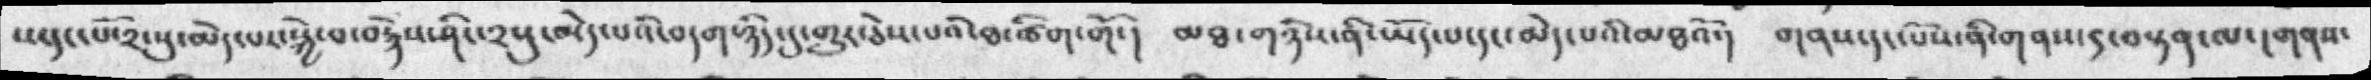ས་དང་པོ་༢སུ་མེད་པར་སྐྱེ་བ་བརྙེས་ཤིང་༢སུ་མེད་པའི་བདག་ཉིད་དུ་གྱུར་ཅེས་པའི་ཐ་ཚིག་གོ་།  མཐ་གཉིས་ནི་ཡོད་པ་དང་མེད་པའི་མཐའོ་། གནས་དང་པོས་ནི་གནས་༩་བསྟན་ལ་།གནས་
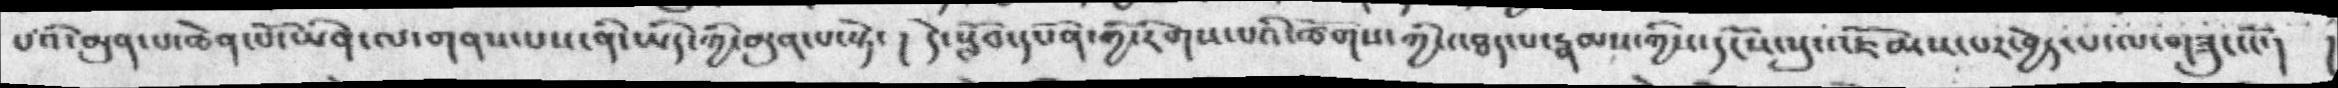པའི་མུན་པ་ཆེན་པོ་ཡིན་ལ་གནས་པས་ནི་ཡིད་ཀྱི་མུན་པ་སྟེ་།  དེ་སློབ་དཔོན་གྱི་རིགས་པའི་ཚོགས་ཀྱི་འཐད་པ་རྣམས་ཀྱིས་དངོས་སུ་འཇོམས་པར་བྱེད་པ་ལ་གཟུང་ངོ་། །
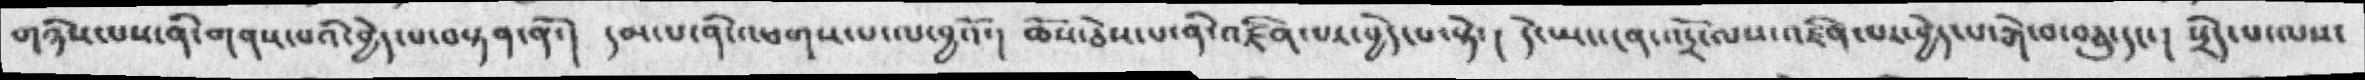གཉིས་པས་ནི་གནས་པའི་བྱེད་པ་བསྟན་ནོ་།  དམ་པ་ནི་འཕགས་པ་ལ་བྱའོ་།  ཆོས་ཅེས་པ་ནི་འཛིན་པར་བྱེད་པ་སྟེ་། དེ་ཡང་ངན་འདྲོ་ལས་འཛིན་པར་བྱེད་པ་རྒེ་བ་བཅུ་དང་། སྲིད་པ་ལས་
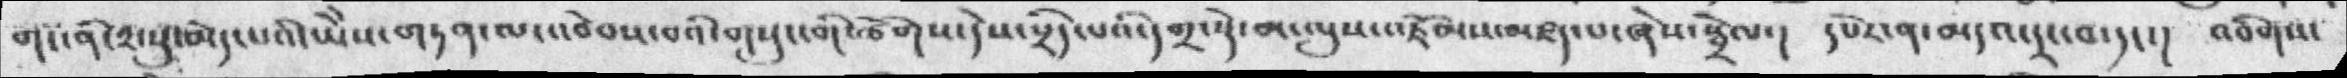གང་ནི་༢་སུ་མེད་པའི་ཡེེས་གཏན་ལ་འབེབས་པའི་གསུང་གི་ཚོགས་དེས་སྲིད་པའི་དགྲ་སྡེ་མ་ལུས་འཇོམས་མཛད་པ་ཞེས་སྦྲེལ་།  དཔེར་ན་མདའ་དྲང་བ་དང་། འབིགས་
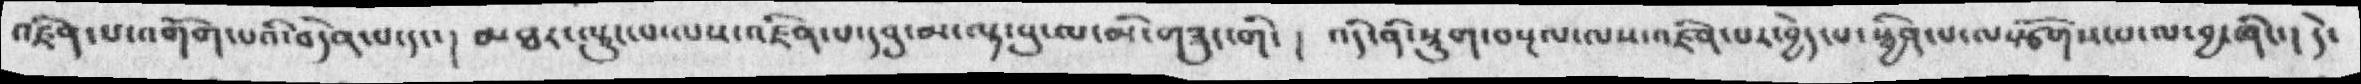འཛིན་པ་འགོག་པའི་བདེན་པ་དང་།  མཐར་ལྟུང་པ་ལས་འཛིན་པ་དབུ་མ་ལྟ་བུ་ལ་མི་གཟུང་གི་ ། འདི་ནི་སྡུག་བསྔལ་ལས་འཛིན་པར་བྱེད་པ་སྦྱིན་པ་ལསྩོགས་པ་ལ་བྱ་ཞིང་། དེ་
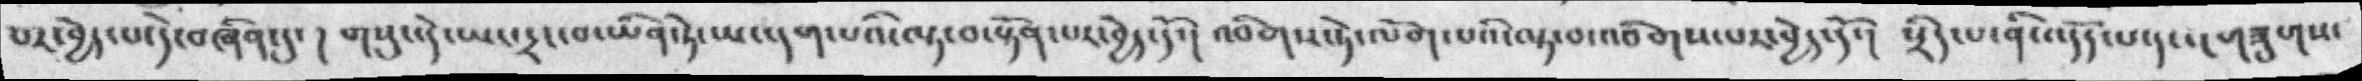པར་བྱེད་པ་དེ་བཞིན་དུ་ ། གསུང་དེ་ཡང་དྲང་བ་ཡིན་ཏེ་ཡང་དག་པའི་ལྟ་བ་སྟོན་པར་བྱེད་དོ་།  འབིགས་ཏེ་ལོག་པའི་ལྟ་བ་འབིགས་པར་བྱེད་དོ་།  སྲིད་པ་ནི་འདོད་པ་དང་གཟུགས་
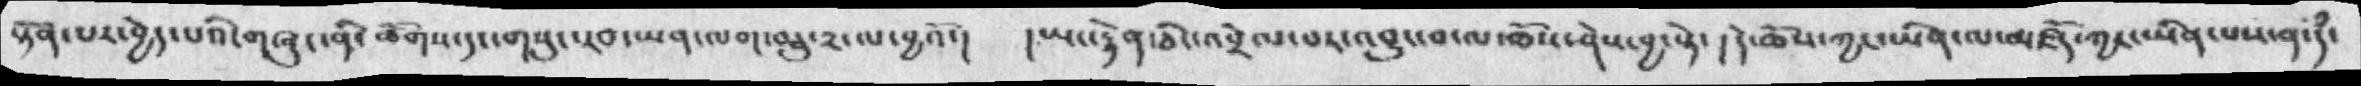སྟོན་པར་བྱེད་པའི་གཞུང་ནི་ཚིགས་དང་གསུང་རབ་ཡན་ལག་བཅུ་༢་ལ་བྱའོ་།  །ཡང་རྟེན་ཅིང་འབྲེལ་བར་འབྱུང་བ་ལ་ཆོས་ཤེས་བྱ་སྟེ་ ། དེ་ཆོས་ཀྱང་ཡིན་ལ་མཛོད་ཀྱད་ཡིན་པས་ན་ད་ཾ
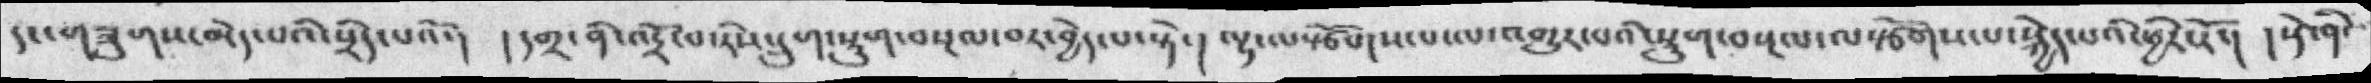དང་གཟུགས་མེད་པའི་སྲིད་པའོ་།  །དགྲ་ནི་འདྲོ་བ་རིས་དྲུག་སྡུག་བསྔལ་བར་བྱེད་པ་སྟེ་།  ལྷ་ལསྩོགས་པ་ལ་འགྱུར་པའི་སྡུག་བསྔལ་ལསྩོགས་པ་སྐྱེད་པའི་ཕྱིར་རོ་།  སྡེ་ནི་
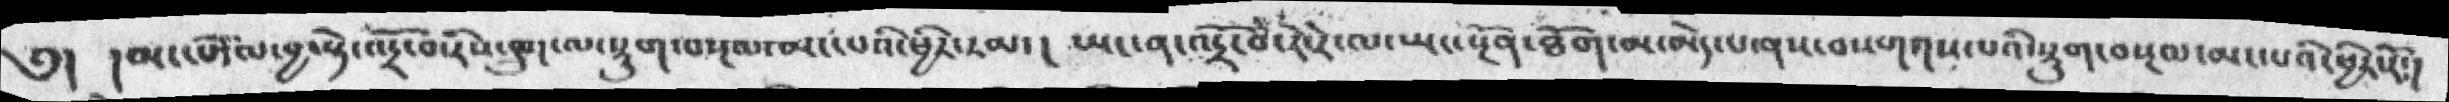༄། །མང་པོ་ལ་བྱ་སྟེ་འདྲོ་བ་རིས་དྲུག་ལ་སྡུག་བསྔལ་མང་པའི་ཕྱིར་རམ་། ཡང་ན་འདྲོ་བ་རེ་རེ་ལ་ཡང་སྔོན་ཐོག་མ་མེད་པ་ནས་བསགས་པའི་སྡུག་བསྔལ་མང་པའི་ཕྱིར༴།
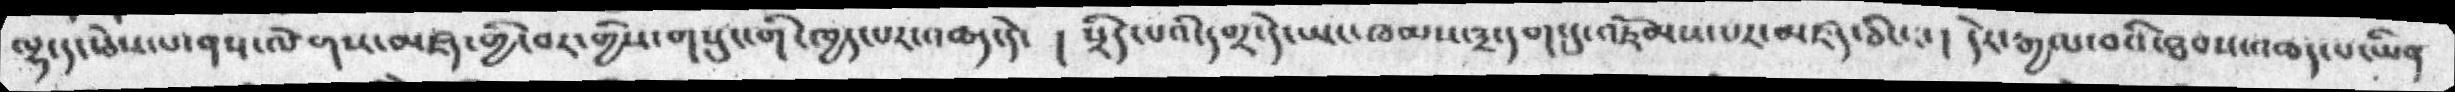ལྷ་དང་ཅེས་པ་ནས་ལེགས་མཛད་གྱི་བར་གྱིས་གསུང་གི་ཁྱད་པར་འཆད་དེ་  ། སྲིད་པའི་དགྲ་དེ་ཡང་ཁམས་༣་དག་དུ་འཇོམས་པར་མཛད་ཅིང་ང་  ། དེར་རྒྱལ་བའི་ཐབས་འཆད་པ་ཡིན་
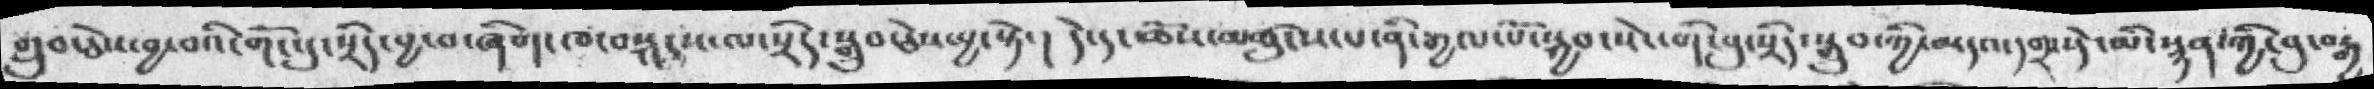གྲུབ་ཅེས་བྱ་བའི་གོང་དུ་སྲིད་བྱ་བ་ཞིག་ཁ་བསྐངས་ལ་སྲིད་སྒྲུབ་ཅེས་བྱ་སྟེ་། དེ་དང་ཆོས་མཚུངས་པ་ནི་རྒྱལ་པོ་སྐྱབ་སེང་གི་བུ་སྲིད་སྒྲུབ་ཀྱི་མདའ་དང་དགྲ་དེ་མི་སྙན་གྱི་བུ་བརྒྱ
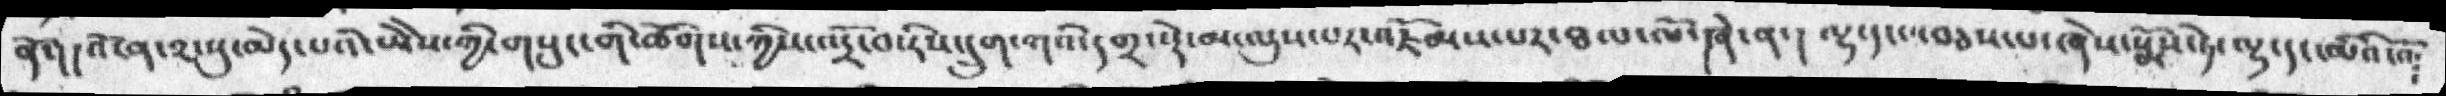ནོ་།། འོ་ན་༢་སུ་མེད་པའི་ཡེེ་ཀྱི་གསུང་གི་ཚོགས་ཀྱིས་འདྲོ་བ་རིས་དྲུག་གའི་དགྲ་སྡེ་མ་ལུས་པར་འཇོམས་པར་ཐལ་ལོ་ཞེ་ན་།  ལྷ་དང་བཅས་པ་ཞེས་སྨོས་ཏེ་ལྷ་དང་མིའི་འོ༴
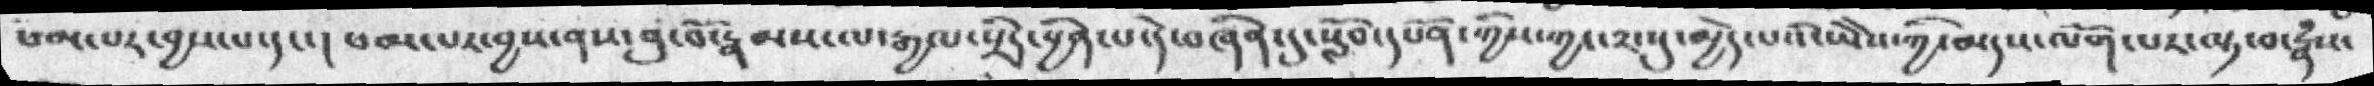ཕམ་པར་བྱས་པ་དང་།  ཕམ་པར་བྱས་ནས་ནུ་བོ་རྣམས་ལ་རྒྱལ་སྲིད་བྱིན་པ་དེ་བཞིན་དུ་སློབ་དཔོན་གྱིས་ཀྱང་༢་སུ་མྱེད་པའི་ཡེེས་ཀྱི་མདས་ལོག་པར་ལྟ་བ་རྣཾས་
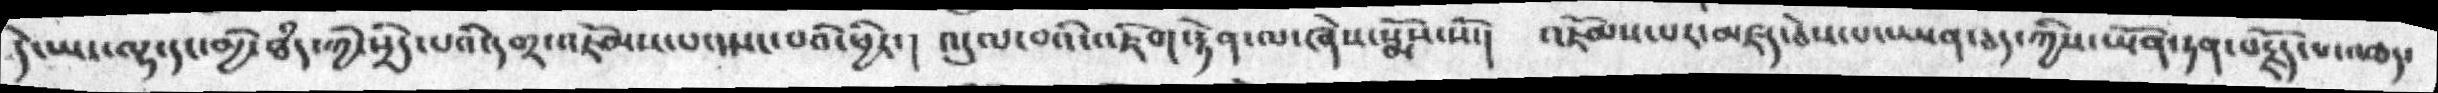དེ་ཡང་ལྷ་དང་མྱི་ཐཾད་ཀྱི་སྲིད་པའི་དགྲ་འཇོམས་པ་སྤང་པའི་ཕྱིར་།  འདུལ་བའི་འཇིག་རྟེན་ལ་ཞེས་སྨོས་སོ་།  འཇོམས་པར་མཛད་ཅེས་པ་ཡན་ཅད་ཀྱིས་ཡོན་ཏན་བརྗོད་པ་འཆད་
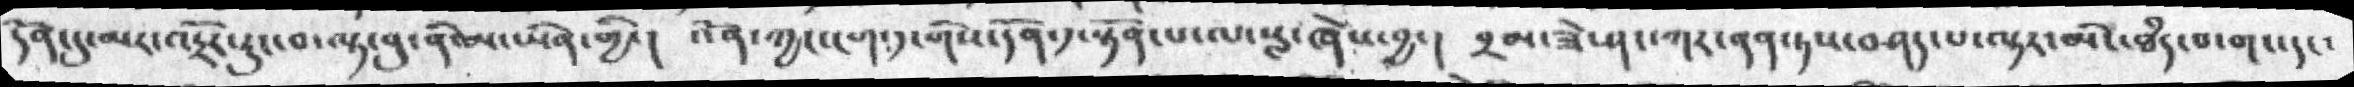དོན་དུ་མར་འདྲོང་རུང་བ་ལྟ་བུ་ནི་མ་ཡིན་གྱི་།  འོན་ཀྱང་ངག་༡་གིས་དོན་༡་སྟོན་པ་ལ་སླ་ཞེས་བ་།  བྲམ་ཟེ་ཤ་ཀར་ནན་ཏས་བཤད་པ་ལྟར་མིང་ཐཾད་པ་གང་དང་
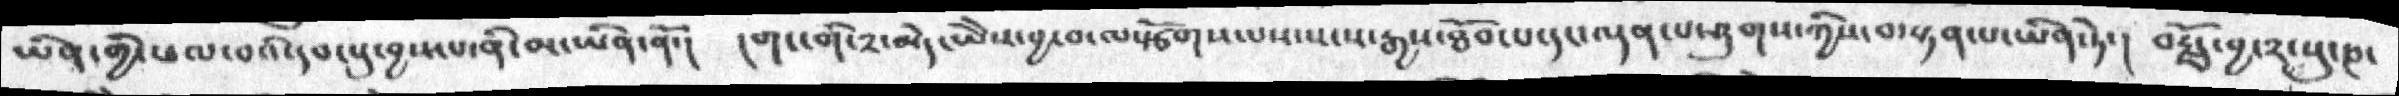ཡིན་གྱི་ཕལ་བའི་དབང་དུ་བྱས་པ་ནི་མ་ཡིན་ནོ་།  །གང་གི་༢་མེད་ཡེེས་བྱ་བ་ལསྩོགས་པས་སངས་རྒྱས་ཐོབ་པ་དང་ལྡན་པ་ཤུགས་ཀྱིས་བསྟན་པ་ཡིན་ཏེ་། བརྗོད་བྱ་༢་སུ་ཎ་
